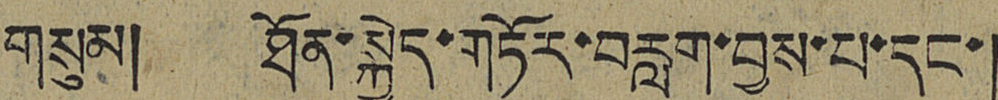གསུམ། ཐོན་སྐྱེད་གཏོར་བརླག་བྱས་པ་དང་།
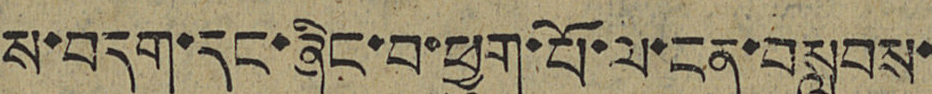ས་བདག་དང་ཞིང་བ་ཕྱུག་པོ་ལ་ངན་བསླབས་
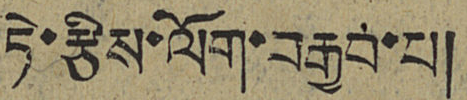ཏེ་རྩིས་ལོག་བརྒྱབ་པ།
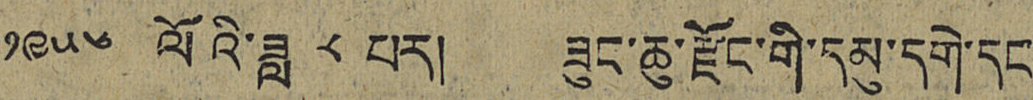༡༩༥༦ ལོའི་ཟླ ༨ པར། ཟུང་ཆུ་རྫོང་གི་དམུ་དགེ་དང་
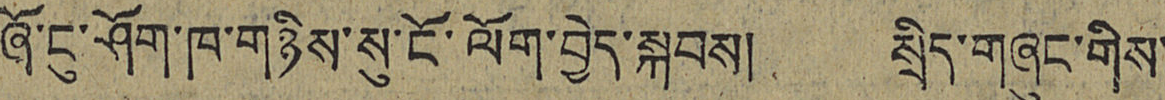ཞོ་ངུ་ཤོག་ཁ་གཉིས་སུ་ངོ་ལོག་བྱེད་སྐབས། སྲིད་གཞུང་གིས་
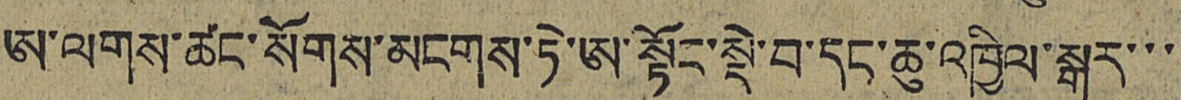ཨ་ལགས་ཚང་སོགས་མངགས་ཏེ་ཨ་སྟོང་སྡེ་བ་དང་ཆུ་འཁྱིལ་སྒུར་་་
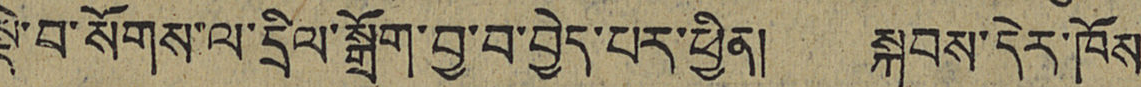སྡེ་བ་སོགས་ལ་དྲིལ་སྒྲོག་བྱ་བ་བྱེད་པར་ཕྱིན། སྐབས་དེར་ཁོས་
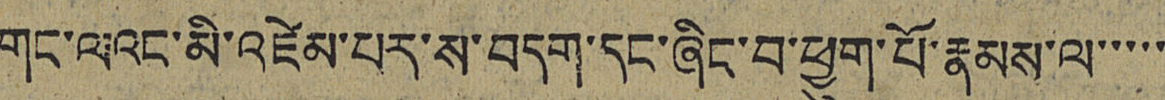གང་ལའང་མི་འཛེམ་པར་ས་བདག་དང་ཞིང་བ་ཕྱུག་པོ་རྣམས་ལ་་་་་
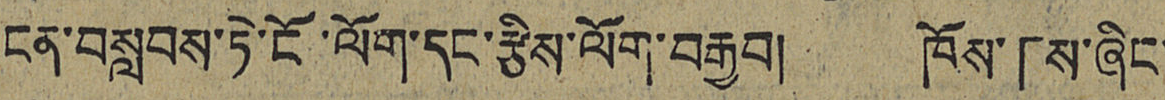ངན་བསླབས་ཏེ་ངོ་ལོག་དང་རྩིས་ལོག་བརྒྱབ། ཁོས་「ས་ཞིང་
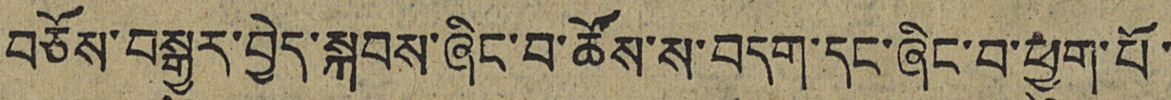བཅོས་བསྒྱུར་བྱེད་སྐབས་ཞིང་བ་ཚོས་ས་བདག་དང་ཞིང་བ་ཕྱུག་པོ་
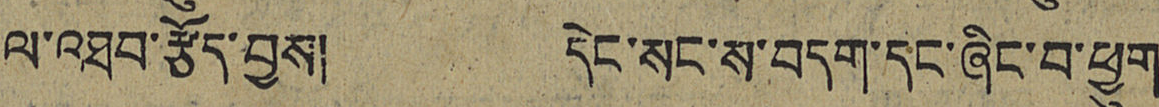ལ་འཐབ་རྩོད་བྱས། དེང་སང་ས་བདག་དང་ཞིང་བ་ཕྱུག་
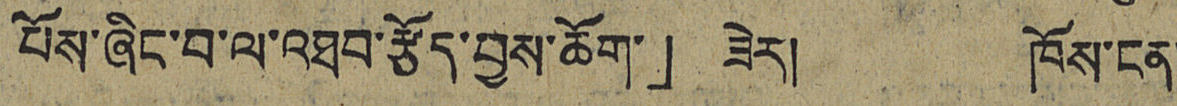པོས་ཞིང་བ་ལ་འཐབ་རྩོད་བྱས་ཆོག་」 ཟེར། ཁོས་ངན་
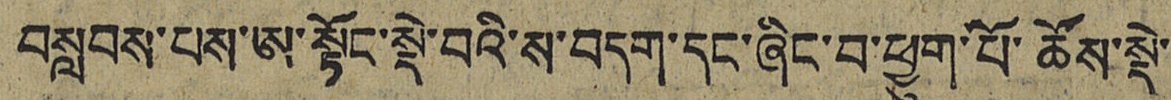བསླབས་པས་ཨ་སྟོང་སྡེ་བའི་ས་བདག་དང་ཞིང་བ་ཕྱུག་པོ་ཚོས་སྡེ་་
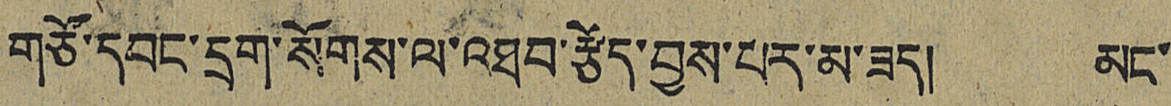གཙོ་དབང་དྲག་སོགས་ལ་འཐབ་རྩོད་བྱས་པར་མ་ཟད། མང་
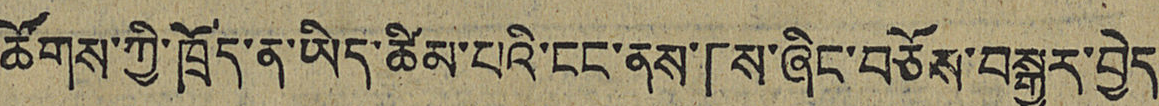ཚོགས་ཀྱི་ཁྲོད་ན་ཡིད་ཚིམ་པའི་ངང་ནས་「ས་ཞིང་བཅོས་བསྒྱུར་བྱེད
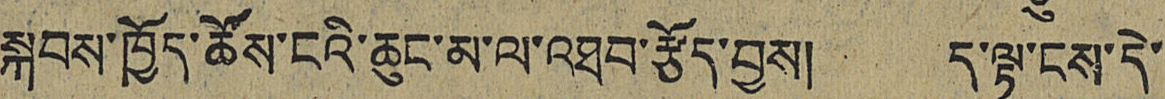སྐབས་ཁྱོད་ཚོས་ངའི་ཆུང་མ་ལ་འཐབ་རྩོད་བྱས། ད་ལྟ་ངས་དེ་
